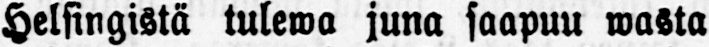Helsingistä tulewa juna saapuu wasta
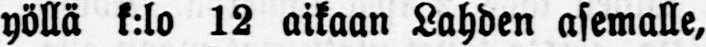yöllä k:lo 12 aikaan Lahden asemalle,
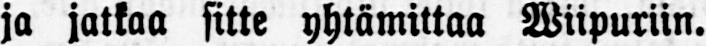ja jatkaa sitte yhtämittaa Wiipuriin.
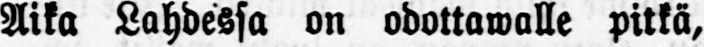Aika Lahdessa on odottawalle pitkä,
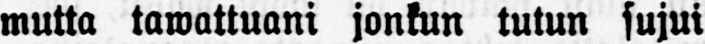mutta tawattuani jonkun tutun sujui
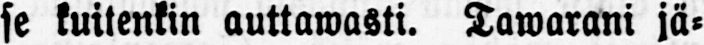se kuitenkin auttawasti. Tawarani jä-
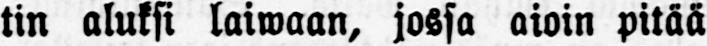tin aluksi laiwaan, jossa aioin pitää
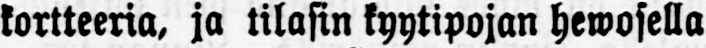kortteeria, ja tilasin kyytipojan hewosella
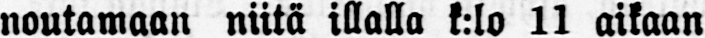noutamaan niitä illalla k:lo 11 aikaan
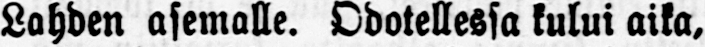Lahden asemalle. Odotellessa kului aika,
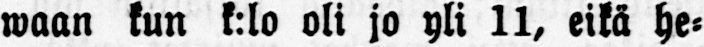waan kun k:lo oli jo yli 11, eikä he-
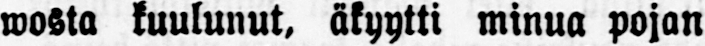wosta kuulunut, äkyytti minua pojan
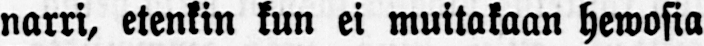narri, etenkin kun ei muitakaan hewosia
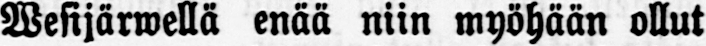Wesijärwellä enää niin myöhään ollut
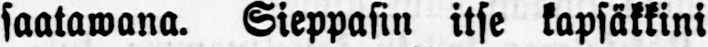saatawana. Sieppasin itse kapsäkkini
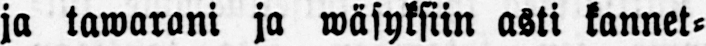ja tawarani ja wäsyksiin asti kannet-
